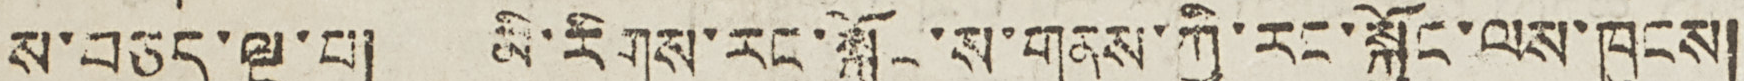ས་བཅད་ལྔ་པ། མི་རིགས་རང་སྐྱོང་ས་གནས་ཀྱི་རང་སྐྱོང་ལས་ཁུངས།
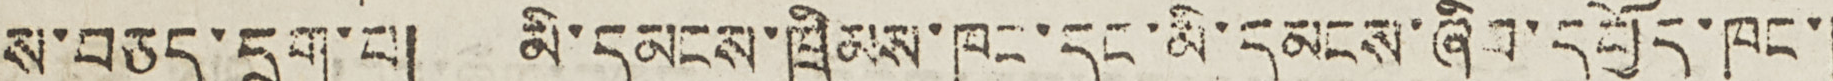ས་བཅད་དྲུག་པ། མི་དམངས་ཁྲིམས་ཁང་དང་མི་དམངས་ཞིབ་དཔྱོད་ཁང་།
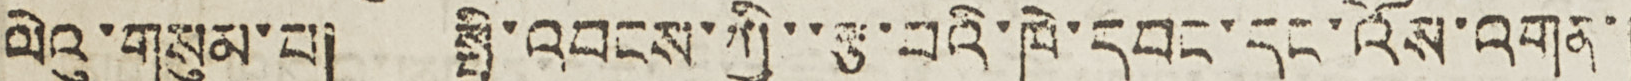ལེའུ་གསུམ་པ། སྤྱི་འབངས་ཀྱི་་རྩ་བའི་ཁེ་དབང་དང་འོས་འགན་།
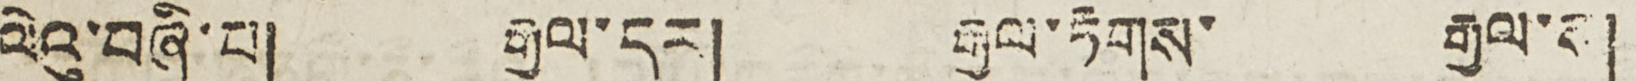ལེའུ་བཞི་པ། རྒྱལ་དར། རྒྱལ་རྟགས་ རྒྱལ་ས།
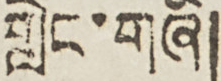གླེང་གཞི།
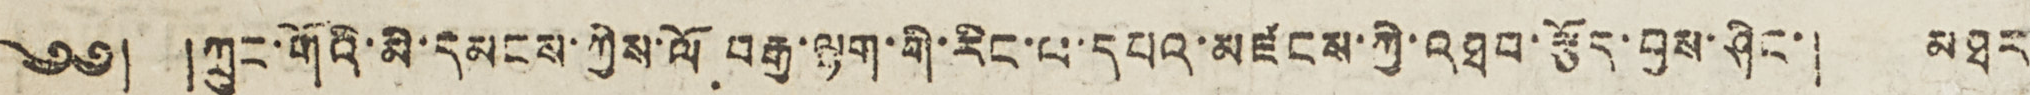༄༅། །ཀྲུང་གོའི་མི་དམངས་ཀྱིས་ལོ བརྒྱ་ལྷག་གི་རིང་ལ་དཔའ་མཛངས་ཀྱི་འཐབ་རྩོད་བྱས་ཤིང་། མཐར་
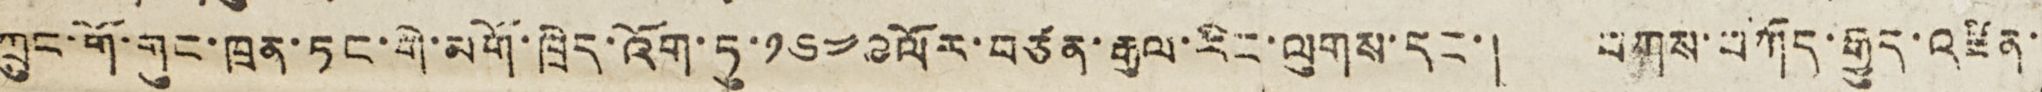ཀྲུང་གོ་གུང་ཁྲན་ཏང་གི་མགོ་ཁྲིད་འོག་ཏུ་༡༦༤༩ལོར་བཙན་རྒྱལ་རིང་ལུགས་དང་། བཀས་བཀོད་རྒྱུད་འཛིན་་
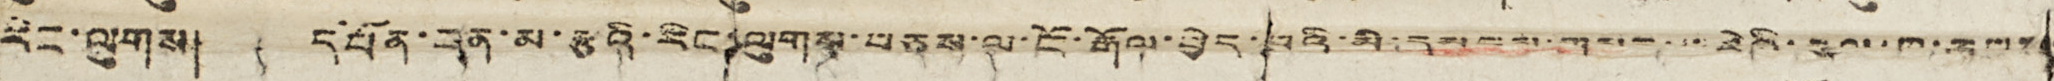རིང་ལུགས། དཔོན་བན་མ་རྩའི་རིང་ལུགས་བཅས་ལ་ངོ་རྒོལ་བྱེད་པའི་མི་དམངས་གསར་བརྗེའི་རྒྱལ་ཁབ་རླབས་
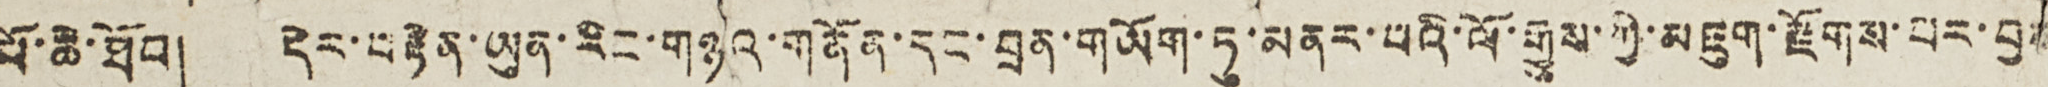པོ་ཆེ་ཐོབ། དེར་བརྟེན་ཡུན་རིང་གཉའ་གནོན་དང་བྲན་གཡོག་ཏུ་མནར་པའི་ལོ་རྒྱུས་ཀྱི་མཇུག་རྫོགས་པར་བྱས
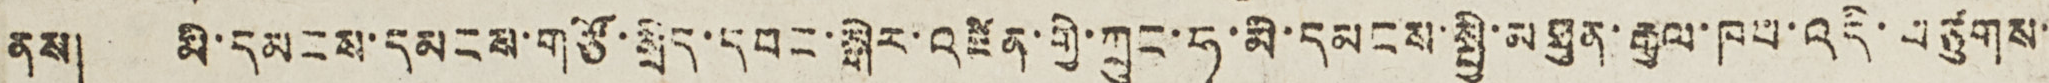ནས། མི་དམངས་དམངས་གཙོ་སྲིད་དབང་སྒེར་འཛིན་གྱི་ཀྲུང་ཧྭ་མི་དམངས་སྤྱི་མཐུན་རྒྱལ་ཁབ་འདི་བཙུགས་་
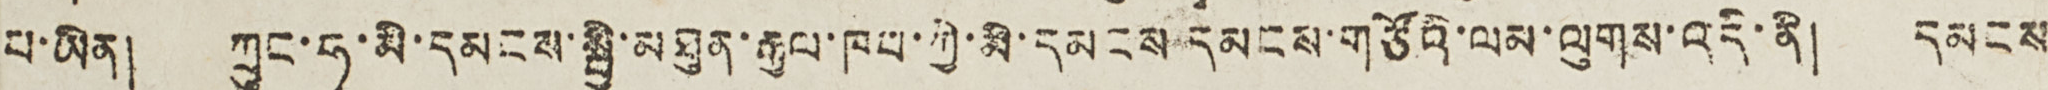པ་ཡིན། ཀྲུང་ཧྭ་མི་དམངས་སྤྱི་མཐུན་རྒྱལ་ཁབ་ཀྱི་མི་དམངས་དམངས་གཙོའི་ལམ་ལུགས་འདི་ནི། དམངས་
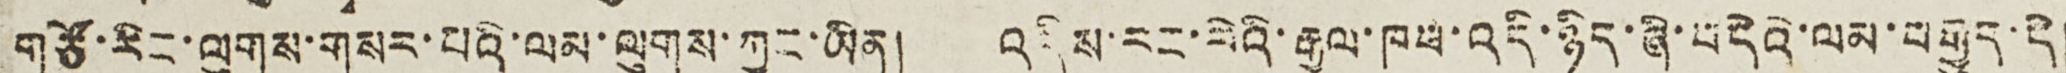གཙོ་རིང་ལུགས་གསར་པའི་ལམ་ལུགས་ཀྱང་ཡིན། འདིས་རང་རེའི་རྒྱལ་ཁབ་འདི་ཉིད་ཞི་བདེའི་ལམ་བརྒྱུད་དེ།
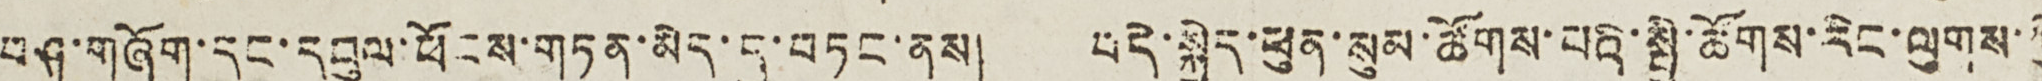བཤུ་གཞོག་དང་དབུལ་ཕོངས་གཏན་མེད་དུ་བཏང་ནས། བདེ་སྐྱེད་ཕུན་སུམ་ཚོགས་པའི་སྤྱི་ཚོགས་རིང་ལུགས་ཀྱི
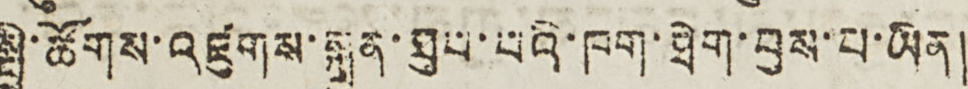སྤྱི་ཚོགས་འཛུགས་སྐྲུན་ཐུབ་པའི་ཁག་ཐེག་བྱས་པ་ཡིན།
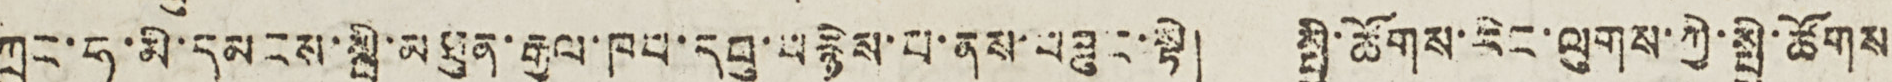ཀྲུང་ཧྭ་མི་དམངས་སྤྱི་མཐུན་རྒྱལ་ཁབ་དབུ་བརྙེས་པ་ནས་བཟུང་སྟེ། སྤྱི་ཚོགས་རིང་ལུགས་ཀྱི་སྤྱི་ཚོགས
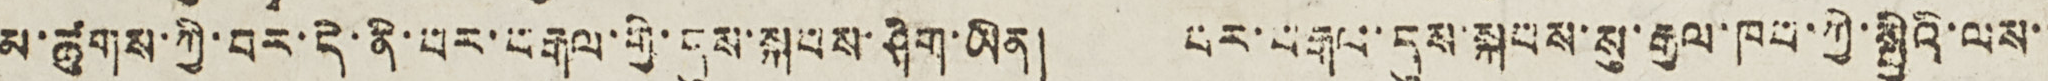མ་ཚུགས་ཀྱི་བར་དེ་ནི་པར་བརྒལ་གྱི་དུས་སྐབས་ཤིག་ཡིན། པར་བརྒལ་དུས་སྐབས་སུ་རྒྱལ་ཁབ་ཀྱི་སྤྱིའི་ལས་་
